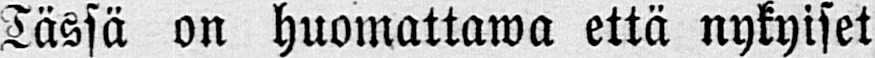Tässä on huomattawa että nykyiset
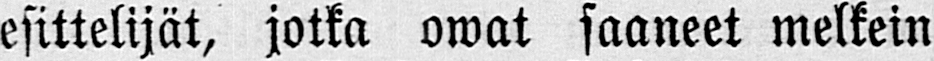esittelijät, jotka owat saaneet melkein
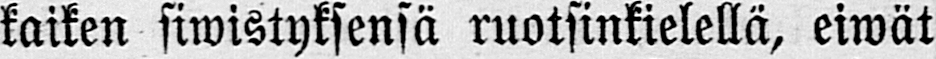kaiken siwistyksensä ruotsinkielellä, eiwät
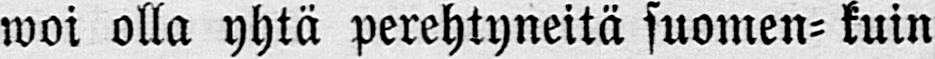woi olla yhtä perehtyneitä suomen-kuin
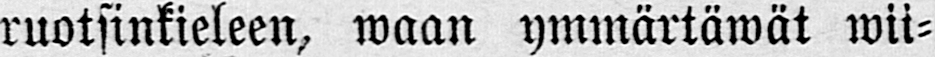ruotsinkieleen, waan ymmärtäwät wii-
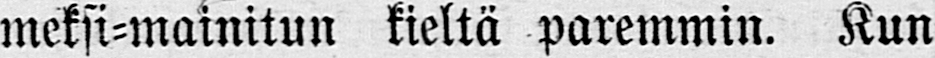meksi-mainitun kieltä paremmin. Kun
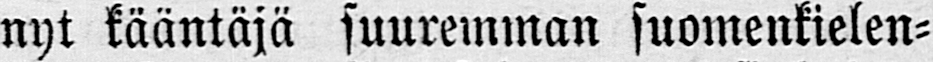nyt kääntäjä suuremman suomenkielen-
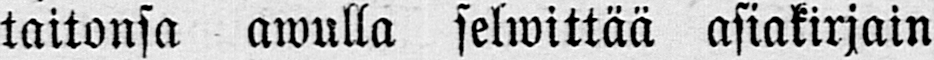taitonsa awulla selwittää asiakirjain
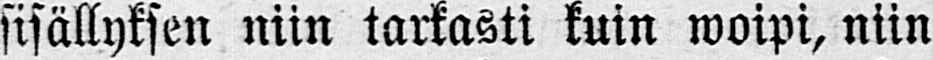sisällyksen niin tarkasti kuin woipi, niin
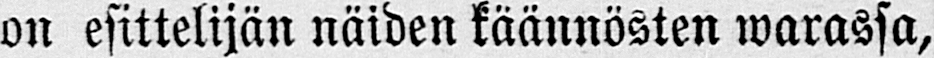on esittelijän näiden käännösten warassa,
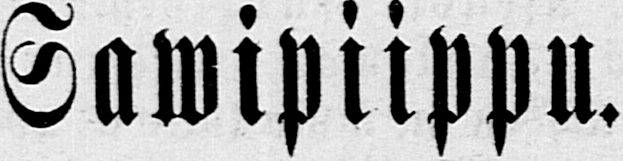Sawipiippu.
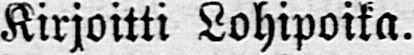Kirjoitti Lohipoika.
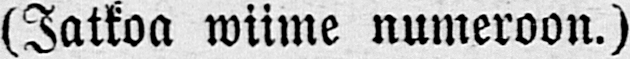(Jatkoa wime numeroon.)
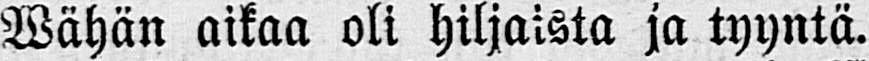Wähän aikaa oli hiljaista ja tyyntä.
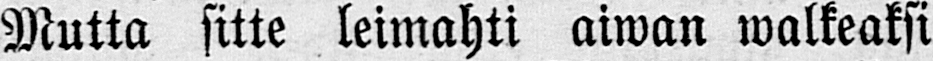Mutta sitte leimahti aiwan walkeaksi
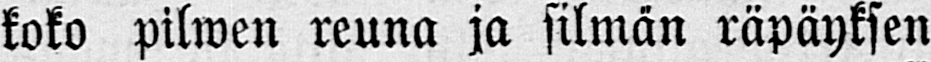koko pilwen reuna ja silmän räpäyksen
